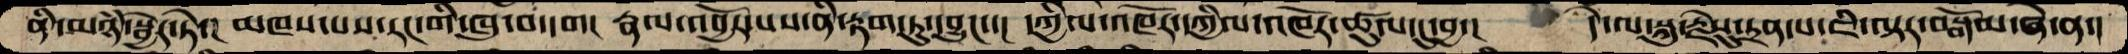ནི་མཉཾ་སྦྱོར་ཏེ་།  མཁས་པས་རང་གི་ཁུ་བ་དག།  རྣལ་འབྱོར་པས་ནི་རྟག་ཏུ་འབྱུང་་།  དཀྱིལ་འཁོར་དཀྱིལ་འཁོར་ཚུལ་དུ་བྱ་།  དེ་ལ་སྐུ་རྗེསུ་དྲན་པ་ཇི་ལྟར་བསྒོམ་ཞེ་ན་།
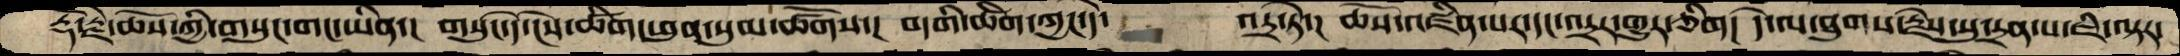རྡོ་རྗེ་ཆོས་ཀྱི་གསུངས་གང་ཡིན་།  གསུང་དེ་ངེས་ཚིག་ཕུན་སུམ་ཚོགས་།  བདག་གི་ཚིག་ཀྱང་དེ་   འདྲ་ཏེ་།  ཆོས་འཛིན་པར་དང་འདྲར་གྱུར་ཅིག།  དེ་ལ་ཐུགས་རྗེས་སུ་དྲན་པ་ཇི་ལྟར་
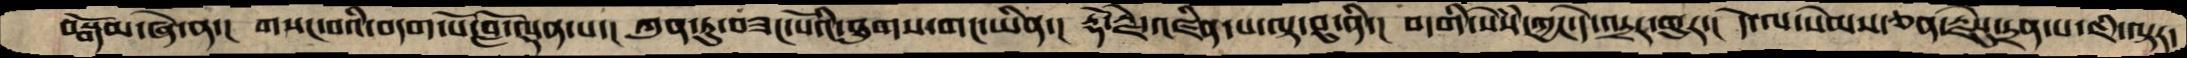བསྒོམ་ཞེ་ན་།  གསང་བའི་བདག་པོ་བློ་ལྡན་པ་།  ཀུན་ཏུ་བཟང་པོའི་ཐུགས་གང་ཡིན་།  རྡོ་རྗེ་འཛིན་པ་ལྟ་བུ་ནི་།  བདགི་སེཾས་ཀྱང་དེ་འདྲར་གྱུར་།  དེ་ལ་སེམས་ཅན་རྗེསུ་དྲན་པ་ཇི་ལྟར་
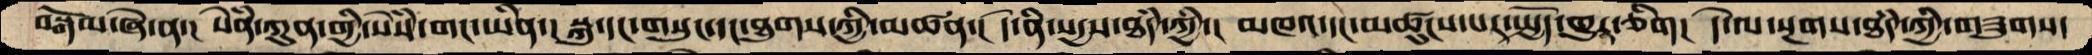བསྒོམ་ཞེ་ན་།  སེཾན་ཀུན་གྱི་སེཾས་གང་ཡིན་། སྐུ་དང་གསུང་དང་ཐུགས་ཀྱི་མཚན་། དེ་ནི་སདྱས་ཐཾད་ཀྱི་།  མཁའ་དང་མཚུངས་པར་སྤྱོད་གྱུར་ཅིག། དེ་ལ་སྔགས་ཐཾད་ཀྱི་གཟུགས་
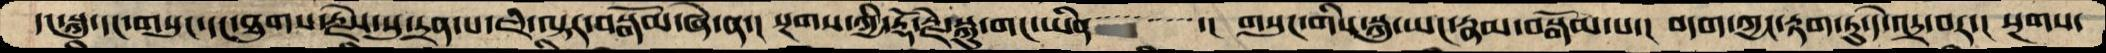དང་སྐུ་དང་གསུང་དང་ཐུགས་རྗེས་སུ་དྲན་པ་ཇི་ལྟར་བསྒོམ་ཞེ་ན་།  སྔགས་ཀྱི་རྡོ་རྗེ་སྐུ་གང་ཡིན་་་་་་་་་་་་་་་་།  གསུང་གིས་སྐུ་ཡང་རྣམ་བསྒོམ་པ་།  བདག་ཀྱང་རྟག་ཏུ་དེ་འདྲ་བར་།  སྔགས་
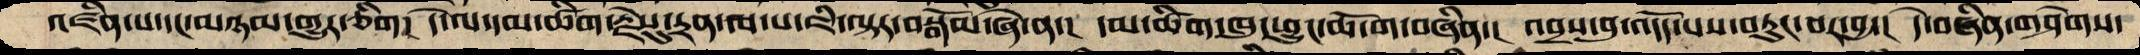འཛིན་པ་དང་མཉམ་གྱུར་ཅིག།  དེ་ལ་དམ་ཚིག་རྗེསུ་དྲན་ལ་ས་ཇི་ལྟར་བསྒོམ་ཞེ་ན་།  དམ་ཚིག་ཁུད་ཕྱུང་ཆོ་ག་བཞིན་།  འབྲས་བུ་འདོད་པས་བཏུང་བར་བྱ་།  དེ་བཞིན་གཤེགས་
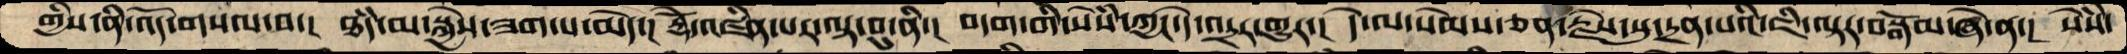གྱིས་ནི་འོད་གསལ་བ་།  ཐཾད་མ་སྐྱེས་ཟག་པ་མེད་།  རྡོེ་འཛིན་པར་ལྟ་བུ་ནི་།  བདག་གི་སེཾས་ཀྱང་དེ་འདྲར་གྱུར་།  དེ་ལ་སེམས་ཅན་རྗེས་སུ་དྲན་པའི་ཇི་ལྟར་བསྒོམ་ཞེ་ན་།  སེཾས་
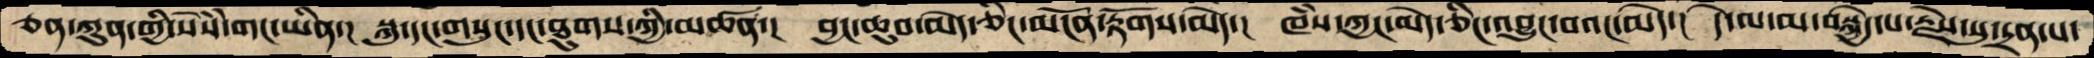ཅན་ཀུན་གྱི་སེཾས་གང་ཡིན་།   སྐུ་དང་གསུང་དང་ཐུགས་ཀྱི་མཚན་།  བྱང་ཆུབ་མེད་ཅིང་མངོན་རྟོགས་མེད་།  ཁཾས་ཀྱང་མེད་ཅིང་འབྱུང་བའང་མེད་།  དེ་ལ་མ་བསྐྱེད་པ་རྗེས་སུ་དྲན་པ་
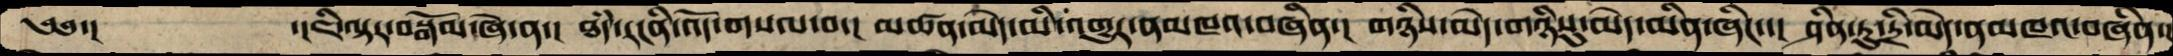༄༅་།   ་།ཇི་ལྟར་བསྒོམ་ཞེ་ན་།  ཐཾད་རངིན་འོད་གསལ་བ་།  མཚན་མེད་མི་འགྱུར་ནམཁའ་བཞིན་།  གཉིས་མེད་གཉིསུ་མེད་མིན་ཞིང་་།  ཤིན་ཏུ་དྲི་མེད་ནམ་མཁའ་བཞིན་།
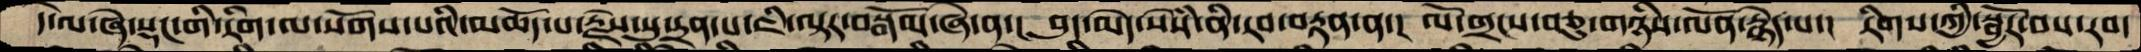དེ་ལ་ཞེ་སྡང་གི་རིག་ལ་སོགས་པའི་མཆོད་པ་རྗེས་སུ་དྲན་པ་ཇི་ལྟར་བསྒོམ་ཞེ་ན་།  བུད་མེད་སེཾས་ནི་རབ་བརྟན་ན་།  ལོ་གྲངས་བཅུ་གཉིས་ལོན་རྙེད་པ་།  རིགས་ཀྱི་སྦྱོར་བས་རབ་
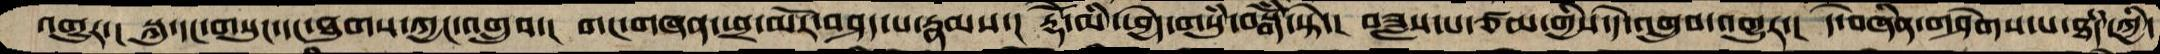འགྱུར་།  སྐུ་དང་གསུང་དང་ཐུགས་ཀྱང་འགྲུབ་།  གང་གཞན་ཕྲ་མོར་བཤད་པ་རྣམས་།  རྡོེ་མི་ཕྱེད་གསུཾ་བསྒོཾ་སྟེ་།  བཟླས་པ་ཙམ་གྱིས་དེ་འགྲུབ་འགྱུར་།  དེ་བཞིན་གཤེགས་པ་ཐཾད་ཀྱི་
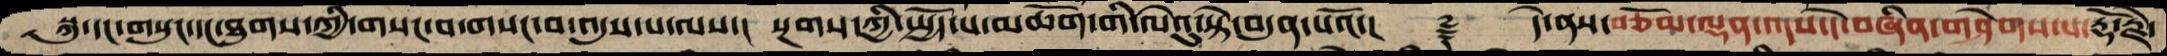སྐུ་དང་གསུང་དང་ཐུགས་ཀྱི་གསང་བ་འདུས་པ་ལས་།  སྔགས་ཀྱི་སྤྱོད་པ་མཆོག་གི་ལེའུ་སྟེ་བདུན་པའོ་།  ༈  དེ་ནས་བཅོམ་ལྡན་འདས་དེ་བཞིན་གཤེགས་པ་རྡོ་རྗེ་
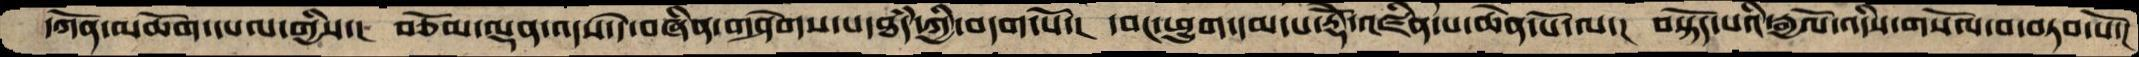དཀོན་མཆོག་དཔལ་གྱིས་།  བཅོམ་ལྡན་འདས་དེ་བཞིན་གཤེགས་པ་ཐཾད་ཀྱི་བདག་པོ་།  དབང་ཕྱུག་དམ་པ་རྡོེ་འཛིན་པ་ཆེན་པོ་ལ་།  བསྟོད་པའི་རྒྱལོ་འདིས་གསོལ་བ་བཏབ་པོ་།
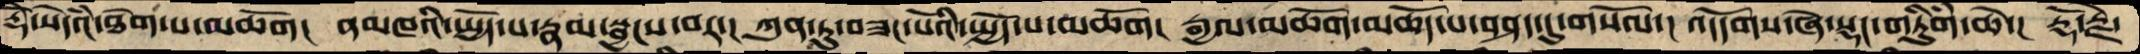རྡོེ་སེདཾའ་ཐེག་པ་མཆོག།  ནམཁའི་སྤྱོད་པ་རྣམ་སྦྱངས་བར་།  ཀུན་ཏུ་བཟང་པོའི་སྤྱོད་པ་མཆོག།  རྒྱལ་མཆོག་མཆོད་པ་བཤད་དུ་གསོལ་།  འདོདགས་ཞེ་སྡང་གཏིུཾག་ཆེ་།  རྡོ་རྗེ་
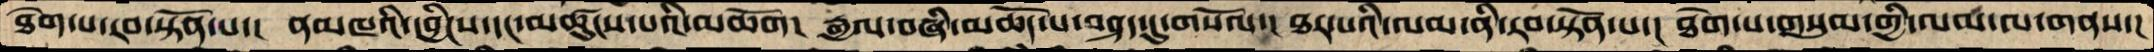ཐེག་པ་རབ་སྟོན་པ་།  ནམཁའི་དབྱིངས་དང་མཚུངས་པའི་མཆོག།  རྒྱལ་བཞི་མཆོད་པ་བཤད་དུ་གསོལ་། ཐར་པའི་ལམ་ནི་རབ་སྟོན་པ་།  ཐེག་པ་གསུམ་གྱི་ལམ་ལ་གནས་།
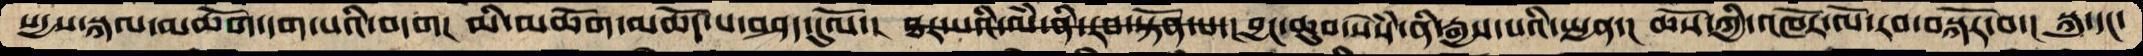སདྱས་སྐལ་མཆོག་དག་པའི་བདག།  མི་མཆོག་མཆོད་པ་བཤད་དུལོ་།  ཐར་པའི་ལཾ་ནི་རབ་སྟོན་པ་།  བྱང་ཆུབ་སེཾས་ནི་རྒྱས་པའི་སྤྱན་།  ཆོས་ཀྱི་འཁོར་ལོ་རབ་བསྐོར་བ་།  སྐུ་དང་
